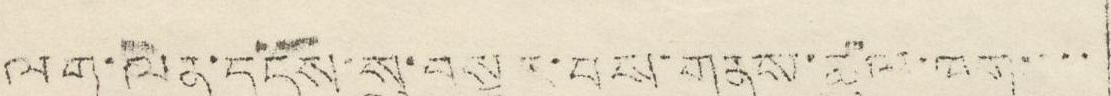ལག་ལེན་དངོས་སུ་བསྟར་བས་གནས་ཚུལ་ཁག་་་་
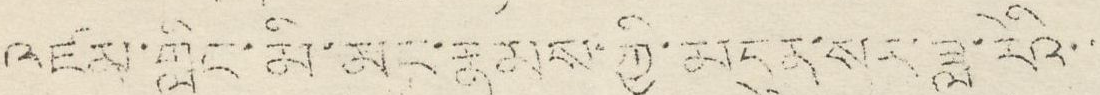འཛམ་གླིང་མི་མང་རྣམས་ཀྱི་མདུན་སར་ཟླ་རེའི་་
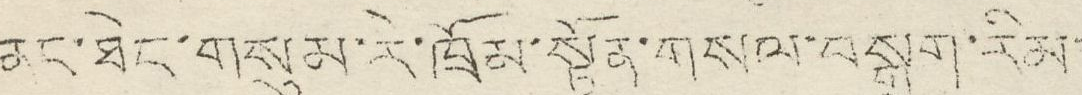ནང་ཐེང་གསུམ་རེ་ཁྲོམ་སྟོན་གསལ་བསྒྲག་རིམ་
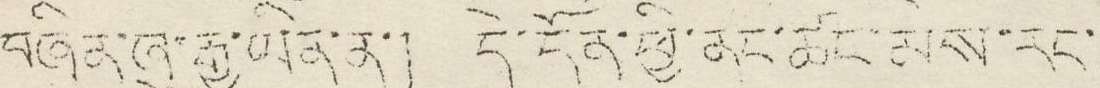བཞིན་ཞུ་རྒྱུ་ཡིན་ན་། དེ་དོན་ཕྱི་ནང་ཚང་མས་རང་
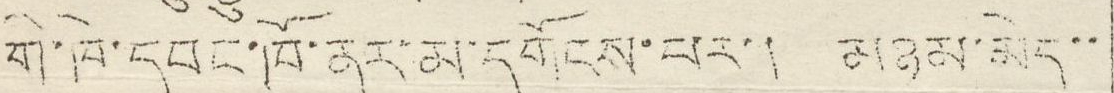གི་ཁེ་དབང་ཁོ་ནར་དགོངས་པར་། མཉམ་མེད་་
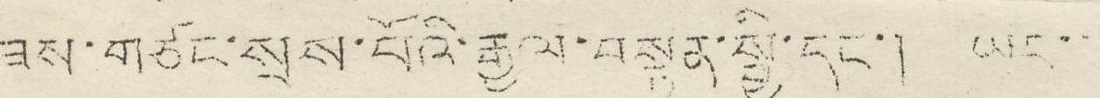ཟས་གཙང་སྲས་པོའི་རྒྱལ་བསྙན་སྤྱི་དང་། ཡང་་
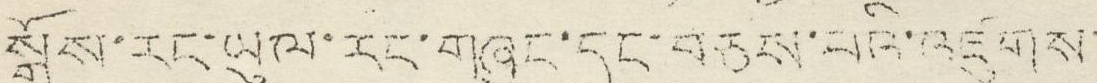སྒོས་རང་ཡུལ་རང་གཞུང་དང་བཅས་པའི་འཛུགས་
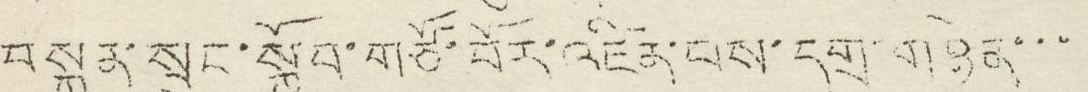བསྐྲུན་སྲུང་སྐྱོབ་གཙོ་བོར་འཛིན་པས་དགྲ་གཉེར་་་
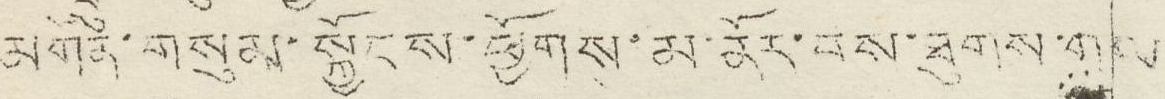མགོན་གསུམ་སྐྱོངས་ཕྱོགས་མ་ནོར་བས་ཐུགས་གལ་
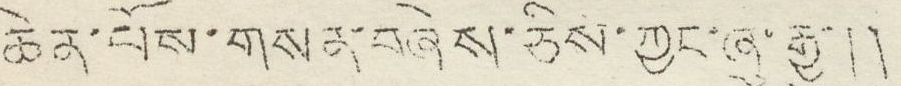ཆེན་པོས་གསན་བཞེས་ཅིས་ཀྱང་ཞུ་རྒྱུ་༎
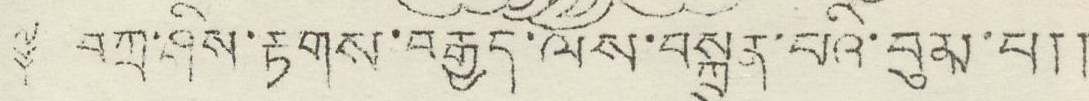༈ བཀྲ་ཤིས་རྟགས་བརྒྱད་ལས་བསྐྲུན་པའི་བུམ་པ།།
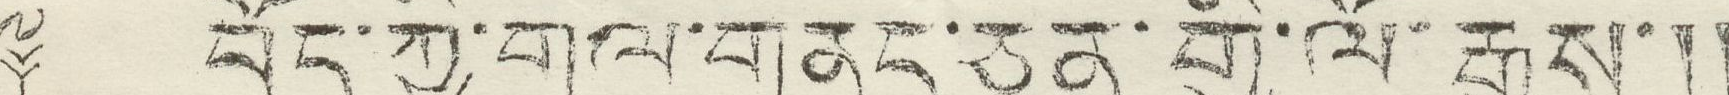༈ བོད་ཀྱི་གལ་གནད་ཅན་གྱི་ལོ་རྒྱུས་།།
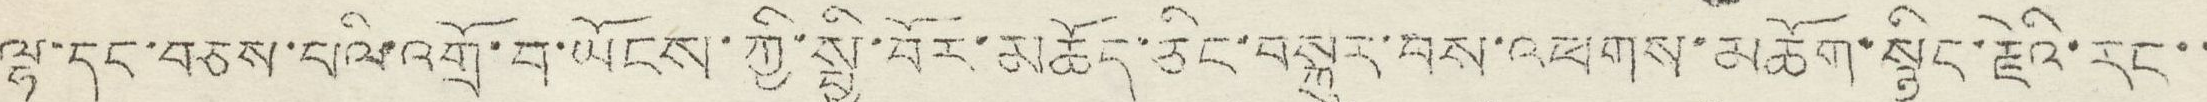ལྷ་དང་བཅས་པལི་འགྲོ་བ་ཡོངས་ཀྱི་སྤྱི་བོར་མཆོད་ཅིང་བསྐུར་བས་འཕགས་མཆོག་སྙིང་རྗེའི་རང་་
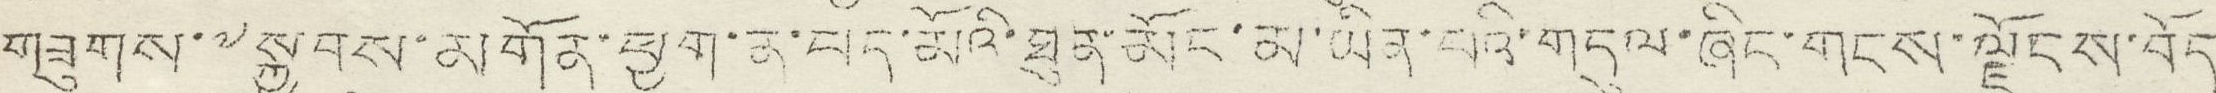གཟུགས་༸སྐྱབས་མགོན་ཕྱག་ན་པད་མོའི་ཐུན་མོང་མ་ཡིན་པའི་གདུལ་ཞིང་གངས་ལྗོངས་བོད་
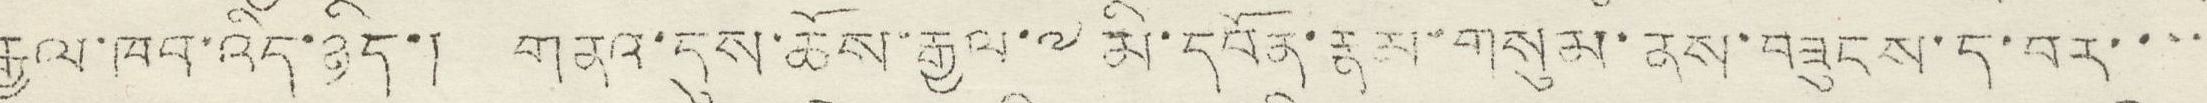རྒྱལ་ཁབ་འདི་ཉིད་། གནའ་དུས་ཆོས་རྒྱལ་༸མི་དབོན་རྣམ་གསུམ་ནས་བཟུངས་ད་བར་་་་
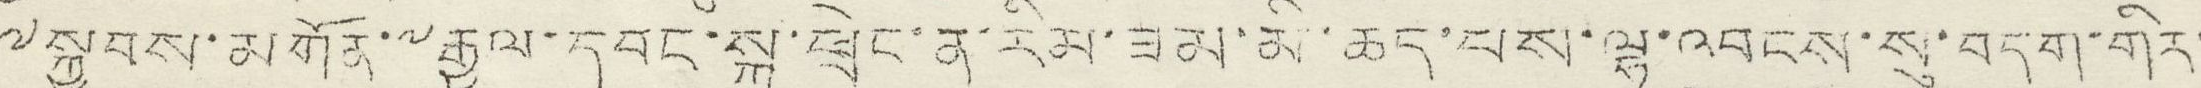༸སྐྱབས་མགོན་༸རྒྱལ་དབང་སྐུ་ཕྲེང་ན་རིམ་ཟམ་མི་ཆད་པས་ལྷ་འབངས་སུ་བདག་གིར་
